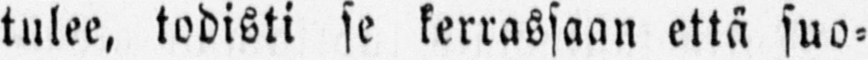tulee, todisti se kerrassaan että suo-
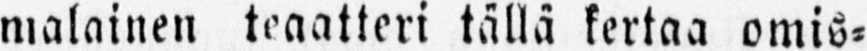malainen teaatteri tällä kertaa omis-
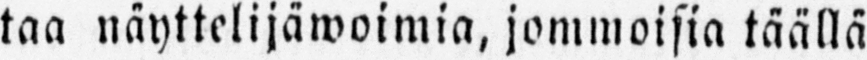taa näyttelijäwoimia, jommoisia täällä
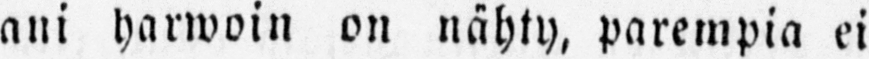ani Harwoin on nähty, parempia ei
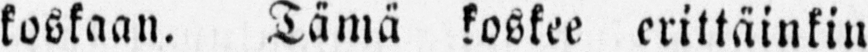koskaan. Tämä koskee erittäinkin
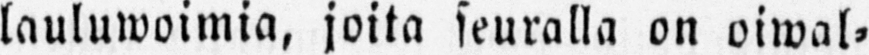lauluwoimia, joita seuralla on oiwal-
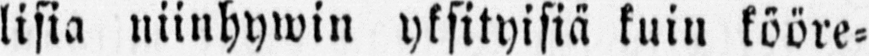lisia niinhywin yksityisiä kuin kööre-
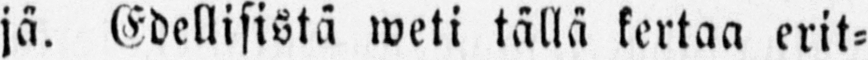jä. Edellisistä weti tällä kertaa erit-
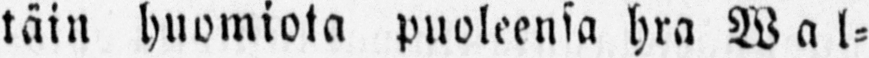täin huomiota puoleensa hra Wal-
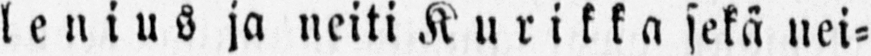lenius ja neiti Kurikka sekä nei-
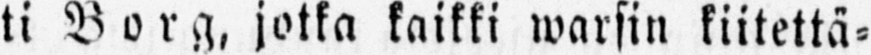ti Borg, jotka kaikki warsin kiitettä-
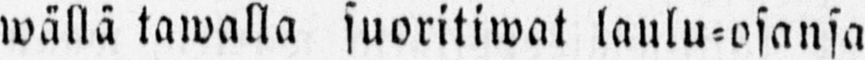wällä tawalla suoritiwat laulu-osansa
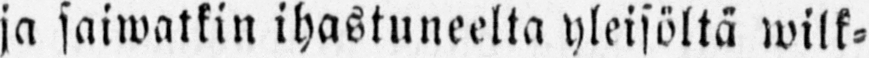ja saiwatkin ihastuneelta yleisöltä wilk-
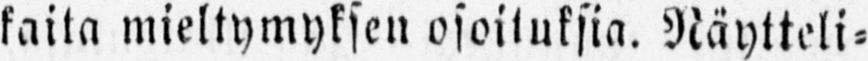kaita mieltymyksen osoituksia. Näytteli-
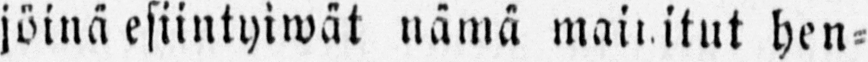jöinä esiintyiwät näinä mainitut hen-
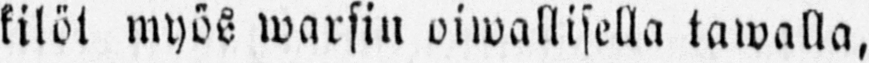kilöt myös warsin oiwallisella tawalla,
